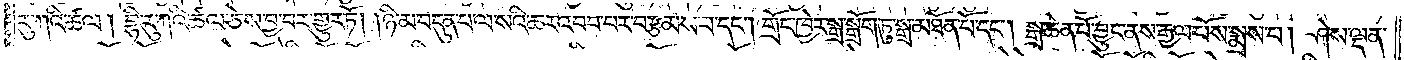རུ་ཀའི་ཚལ། བྷི་རུ་ཀའི་ཚལ་ཅེས་བྱ་བར་གྱུར་ཏོ། །ཉི་མ་བདུན་པ་ལ་སའི་ཆར་འབབ་པར་བརྩམས་པ་དང༌། གྲོང་ཁྱེར་སྒྲ་སྒྲོག་ཏུ་སྒྲ་མཐོན་པོ་དང༌། སྒྲ་ཆེན་པོ་བྱུང་ནས་རྒྱལ་པོས་སྨྲས་པ། ཤེས་ལྡན་
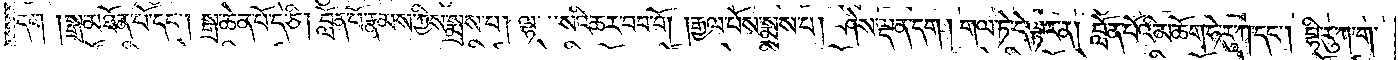དག །སྒྲ་མཐོན་པོ་དང༌། སྒྲ་ཆེན་པོ་དེ་ཅི། བློན་པོ་རྣམས་ཀྱིས་སྨྲས་པ། ལྷ་སའི་ཆར་བབ་བོ། །རྒྱལ་པོས་སྨྲས་པ། ཤེས་ལྡན་དག །གལ་ཏེ་དེ་ལྟར་ན། བློན་པོའི་མཆོག་ཧེ་རུ་ཀ་དང༌། བྷི་རུ་ཀ་ག་
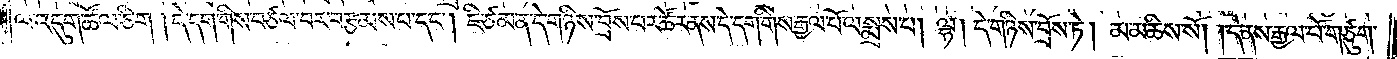ལ་འདུག་ཚོལ་ཅིག །དེ་དག་གིས་བཙལ་བར་བརྩམས་པ་དང༌། ཇི་ཙམ་ན་དེ་གཉིས་བྲོས་པར་ཚོར་ནས་དེ་དག་གིས་རྒྱལ་པོ་ལ་སྨྲས་པ། ལྷ། དེ་གཉིས་བྲོས་ཏེ། མ་མཆིས་སོ། །དེ་ནས་རྒྱལ་པོ་གཙུག་
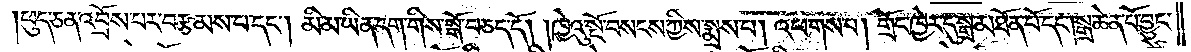།ཕུད་ཅན་འབྲོས་པར་བརྩམས་པ་དང༌། མི་མ་ཡིན་དག་གིས་སྒོ་བཅད་དོ། །ཁྱེའུ་སྔོ་བསངས་ཀྱིས་སྨྲས་པ། འཕགས་པ། གྲོང་ཁྱེར་དུ་སྒྲ་མཐོན་པོ་དང༌།སྒྲ་ཆེན་པོ་བྱུང་
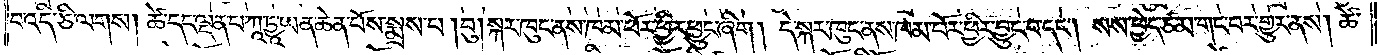བ་འདི་ཅི་ལགས། ཚེ་དང་ལྡན་པ་ཀཱ་ཏྱཱ་ཡན་ཆེན་པོས་སྨྲས་པ། བུ། སྐར་ཁུང་ནས་ཁམ་ཕོར་ཕྱིར་ཕྱུང་ཞིག། དེ་སྐར་ཁུང་ནས་ཁམ་པོར་ཕྱིར་བྱུང་བ་དང༌། སས་ཕྱེད་ཙམ་གང་བར་གྱུར་ནས། ཚེ་
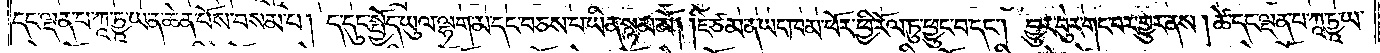དང་ལྡན་པ་ཀཱ་ཏྱཱ་ཡ་ན་ཆེན་པོས་བསམ་པ། ད་དུང་སྤྱོད་ཡུལ་ལྷག་མ་དང་བཅས་པ་ཡིན་སྙམ་མོ། །ཇི་ཙམ་ན་ཡང་ཁམ་ཕོར་ཕྱི་རོལ་ཏུ་ཕྱུང་བ་དང༌། བྱུར་བུར་གང་བར་གྱུར་ནས། ཚེ་དང་ལྡན་པ་ཀཱ་ཏྱཱ་ཡ་
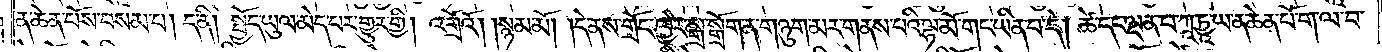ན་ཆེན་པོས་བསམ་པ། ད་ནི། སྤྱོད་ཡུལ་མེད་པར་གྱུར་གྱི། འགྲོའོ། །སྙམ་མོ། །དེ་ནས་གྲོང་ཁྱེར་སྒྲ་སྒྲོག་ན་གཉུག་མར་གནས་པའི་ལྷ་མོ་གང་ཡིན་པ་དེ། ཚེ་དང་ལྡན་པ་ཀཱ་ཏྱཱ་ཡ་ན་ཆེན་པོ་ག་ལ་བ་
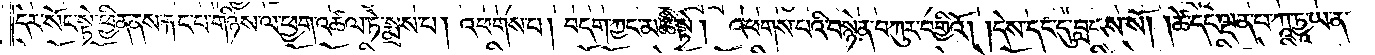དེར་སོང་སྟེ་ཕྱིན་ནས་རྐང་པ་གཉིས་ལ་ཕྱག་འཚལ་ཏེ་སྨྲས་པ། འཕགས་པ། བདག་ཀྱང་མཆི་སྟེ། འཕགས་པའི་བསྙེན་བཀུར་བགྱིའོ། །དེས་དང་དུ་བླངས་སོ། །ཚེ་དང་ལྡན་པ་ཀཱ་ཏྱཱ་ཡ་ན་
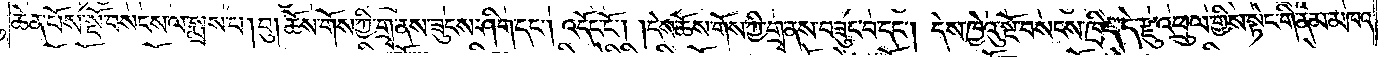ཆེན་པོས་སྔོ་བསངས་ལ་སྨྲས་པ། བུ། ཆོས་གོས་ཀྱི་གྲྭ་ནས་ཟུངས་ཤིག་དང༌། འདོང་ངོ༌། །དེས་ཆོས་གོས་ཀྱི་གྲྭ་ནས་བཟུང་བ་དང༌། དེས་ཁྱེའུ་སྔོ་བསངས་ཁྲིད་དེ་རྫུ་འཕྲུལ་གྱིས་སྟེང་གི་ནམ་མཁའ་
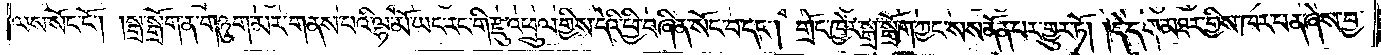ལས་སོང་ངོ༌། །སྒྲ་སྒྲོག་ན་གཉུག་མར་གནས་པའི་ལྷ་མོ་ཡང་རང་གི་རྫུ་འཕྲུལ་གྱིས་དེའི་ཕྱི་བཞིན་སོང་བ་དང༌། གྲོང་ཁྱེར་སྒྲ་སྒྲོག་ཀྱང་སས་ནོན་པར་གྱུར་ཏོ། །དེ་དག་མཐར་གྱིས་ཁར་པན་ཞེས་བྱ་
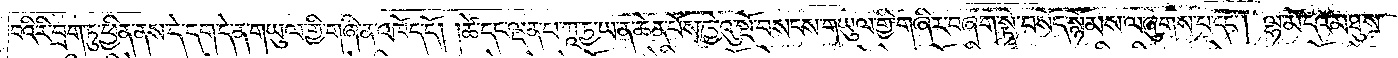བའི་རི་བྲག་ཏུ་ཕྱིན་ནས་དེ་དག་དེ་ན་གཡུལ་གྱི་གཞི་ན་འཁོད་དོ། །ཚེ་དང་ལྡན་པ་ཀཱ་ཏྱཱ་ཡ་ན་ཆེན་པོས་ཁྱེའུ་སྔོ་བསངས་གཡུལ་གྱི་བཞིར་བཞག་སྟེ་བསོད་སྙོམས་ལ་ཞུགས་པ་དང༌། ལྷ་མོ་དེའི་མཐུས་
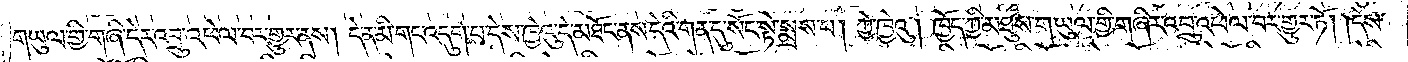གཡུལ་གྱི་གཞི་དེར་འབྲུ་འཕེལ་བར་གྱུར་ནས། དེ་ན་མི་གང་འདུག་པ་དེས་ཁྱེའུ་དེ་མཐོང་ནས་དེའི་གན་དུ་སོང་སྟེ་སྨྲས་པ། ཀྱེ་ཁྱེའུ། ཁྱོད་ཀྱི་མཐུས་གཡུལ་གྱི་གཞིར་འབྲུ་འཕེལ་བར་གྱུར་ཏོ། །དེས་
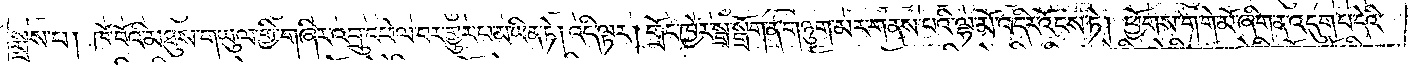སྨྲས་པ། ཁོ་བོའི་མཐུས་གཡུལ་གྱི་གཞིར་འབྲུ་འཕེལ་བར་གྱུར་པ་མ་ཡིན་ཏེ། འདི་ལྟར། གྲོང་ཁྱེར་སྒྲ་སྒྲོག་ན་གཉུག་མར་གནས་པའི་ལྷ་མོ་འདིར་འོངས་ཏེ། ཕྱོགས་ག་གེ་མོ་ཞིག་ན་འདུག་པ་དེའི་
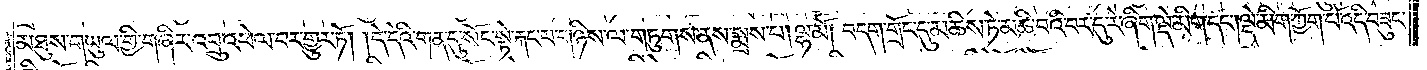མཐུས་གཡུལ་གྱི་གཞིར་འབྲུ་འཕེལ་བར་གྱུར་ཏོ། །དེ་དེའི་གན་དུ་སོང་སྟེ་རྐང་པ་གཉིས་ལ་གཏུགས་ནས་སྨྲས་པ།ལྷ་མོ། བདག་གྲོང་དུ་མཆིས་ཏེ་མཆི་བའི་བར་དུ་རེ་ཞིག་ལྡེ་མིག་དང༌།ལྡེ་མིག་ཀྱོག་པོ་འདི་བཟུང་
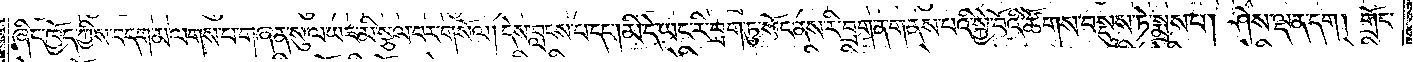ཞིང་ཁྱོད་ཀྱིས་བདག་མ་ལགས་པ་གཞན་སུ་ལ་ཡང་མི་སྩལ་བར་གསོལ། དེས་བླངས་པ་དང༌། མི་དེ་ཡང་རི་བྲག་ཏུ་སོང་ནས་རི་བྲག་ན་གནས་པའི་སྐྱེ་བོའི་ཚོགས་བསྡུས་ཏེ་སྨྲས་པ། ཤེས་ལྡན་དག །གྲོང་
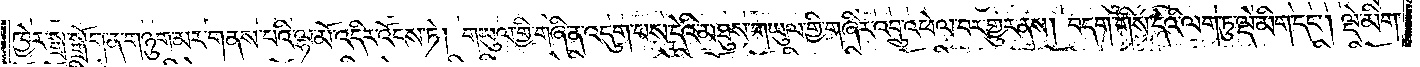ཁྱེར་སྒྲ་སྒྲོག་ན་གཉུག་མར་གནས་པའི་ལྷ་མོ་འདིར་འོངས་ཏེ། གཡུལ་གྱི་གཞི་ན་འདུག་པས་དེའི་མཐུས་གཡུལ་གྱི་གཞིར་འབྲུ་འཕེལ་བར་གྱུར་ནས། བདག་གིས་དེའི་ལག་ཏུ་ལྡེ་མིག་དང༌། ལྡེ་མིག་
